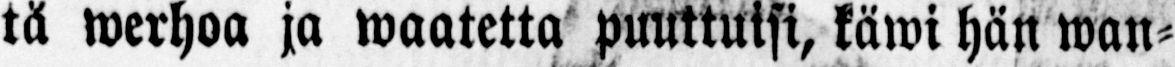tä werhoa ja waatetta puuttuisi, käwi hän wan-
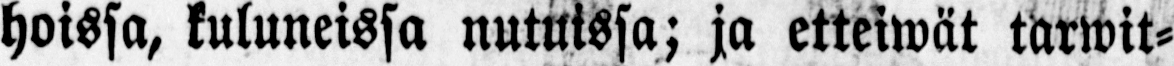hoissa, kuluneissa nutuissa; ja etteiwät tarwit-
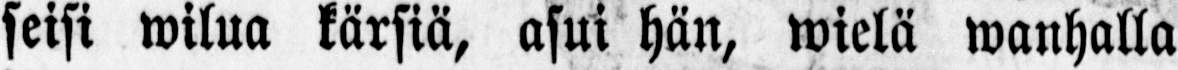seisi wilua kärsiä, asui hän, wielä wanhalla
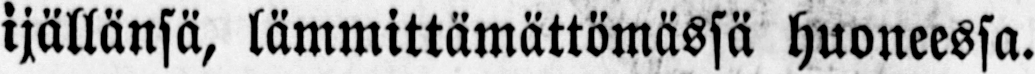ijällänsä, lämmittämättömässä huoneessa.
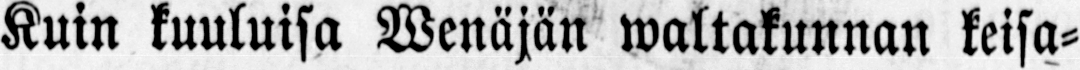Kuin kuuluisa Wenäjän waltakunnan keisa-
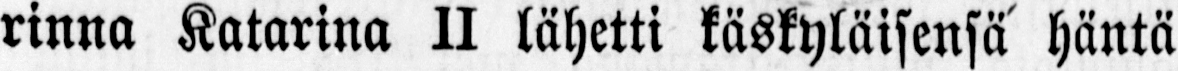rinna Katarina II lähetti käskyläisensä häntä
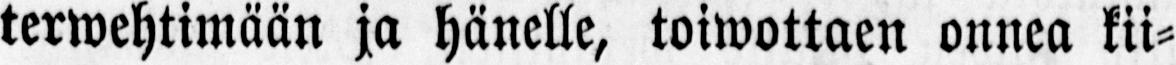terwehtimään ja hänelle, toiwottaen onnea kii-
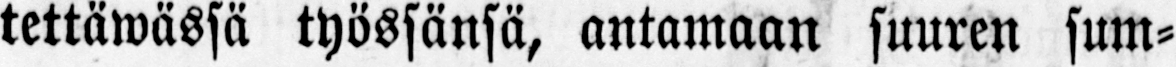tettäwässä työssänsä, antamaan suuren sum-
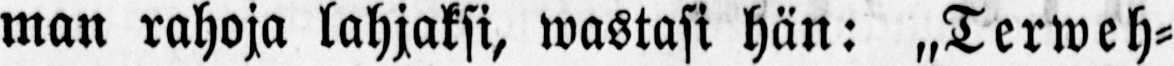man rahoja lahjaksi, wastasi hän: „Terweh-
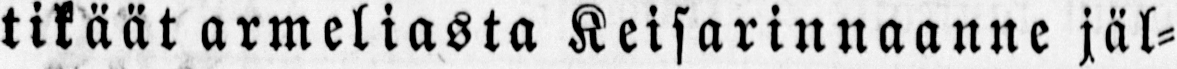tikäät armeliasta Keisarinnaanne jäl-
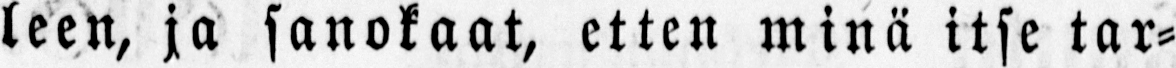leen, ja sanokaat, etten minä itse tar-
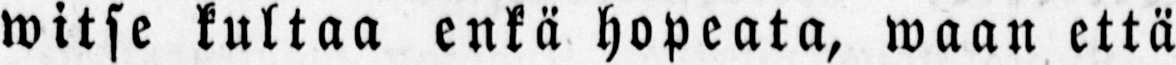witse kultaa enkä hopeata, waan että
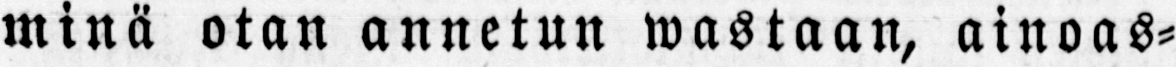minä otan annetun wastaan, ainoas-
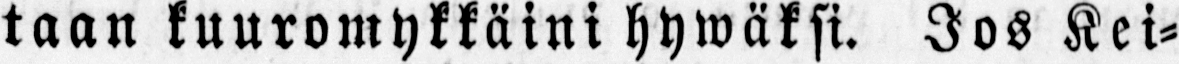taan kuuromykkäini hywäksi. Jos Kei-
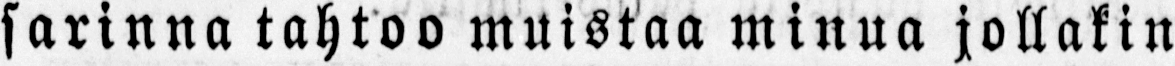sarinna tahtoo muistaa minua jollakin
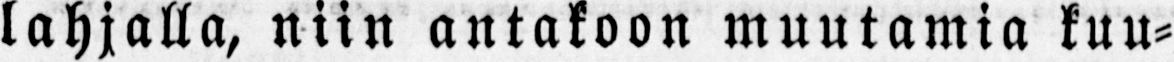lahjalla, niin antakoon muutamia kuu-
